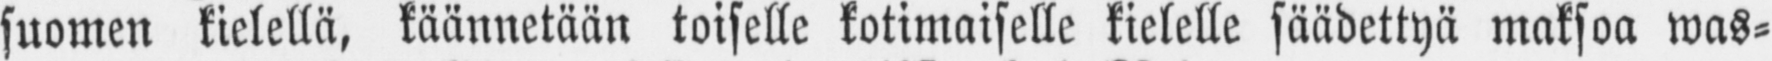suomen kielellä, käännetään toiselle kotimaiselle kielelle säädettyä maksoa was-
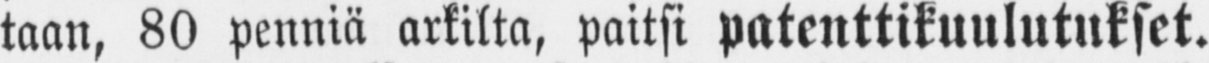taan, 80 penniä arkilta, paitsi patenttikuulutukset.
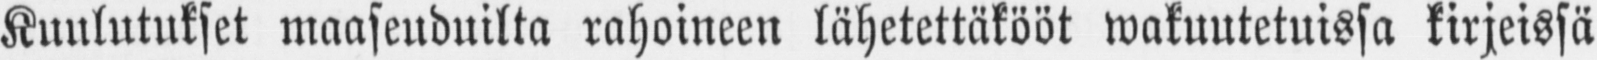Kuulutukset maaseuduilta rahoineen lähetettäkööt wakuutetuissa kirjeissä
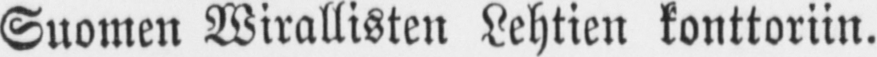Suomen Wirallisten Lehtien konttoriin.
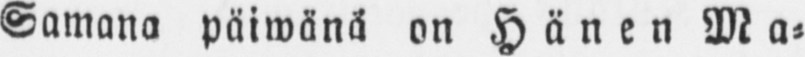Samana päiwänä on Hänen Ma-
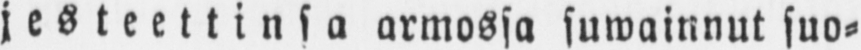jesteettinsa armossa suwainnut suo-
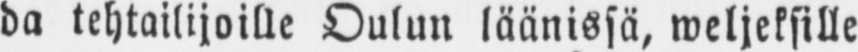da tehtailijoille Oulun läänissä, weljeksille
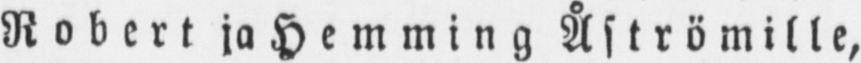Robert ja Hemming Åströmille,
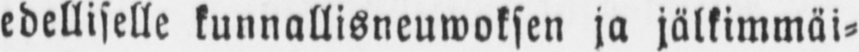edelliselle kunnallisneuwoksen ja jälkimmäi-
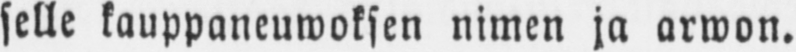selle kauppaneuwoksen nimen ja arwon.
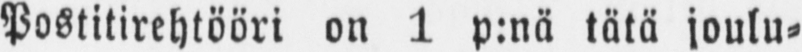Postitirehtööri on 1 p:nä tätä joulu-
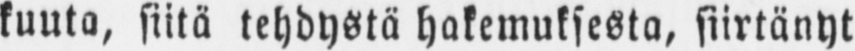kuuta, siitä tehdystä hakemuksesta, siirtänyt
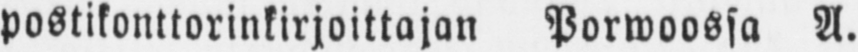postikonttorinkirjoittajan Porwoossa A.
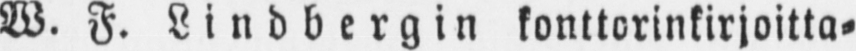W. F. Lindbergin konttorinkirjoitta-
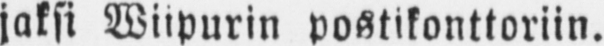jaksi Wiipurin postikonttoriin.
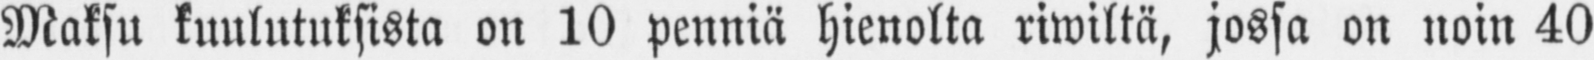Maksu kuulutuksista on 10 penniä hienolta riwiltä, jossa on noin 40
